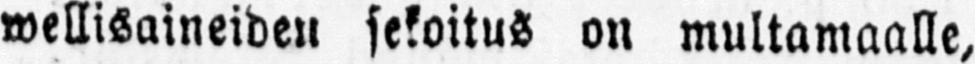wellisaineiden sekoitus on multamaalle,
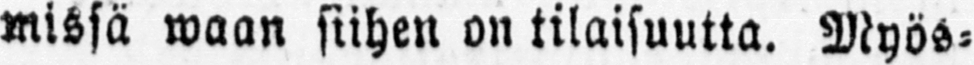missä waan siihen on tilaisuutta. Myös-
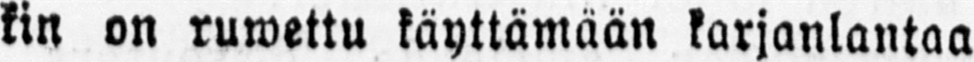kin on ruwettu käyttämään karjanlantaa
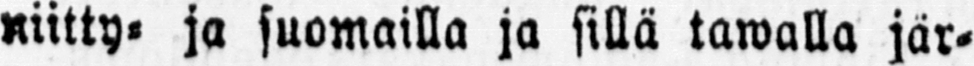niitty ja suomailla ja sillä tawalla jär-
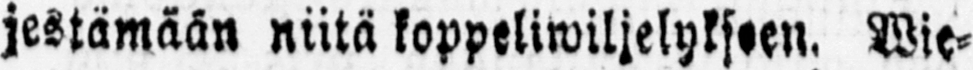jestämään niitä koppeliwiljelykseen. Wie-
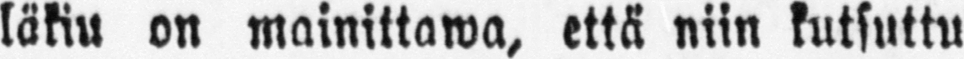läkiu on mainittawa, että niin kutsuttu
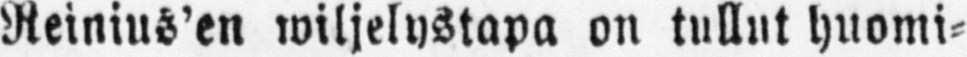Reinius'en wiljelystapa on tullut huomi-
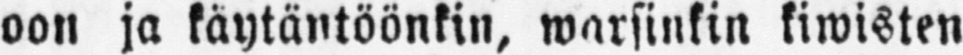oon ja käytäntöönkin, warsinkin kiwisten
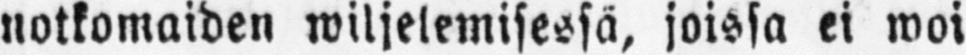notkomaiden wiljelemisessa, joissa ei woi
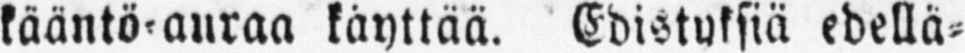kääntö-auraa käyttää. Edistyksiä edellä-
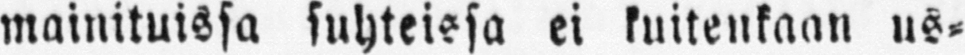mainituista suhteissa ei kuitenkaan us-
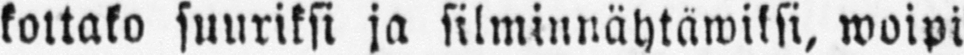kottako suuriksi ja silminnähtäwiksi, woipi
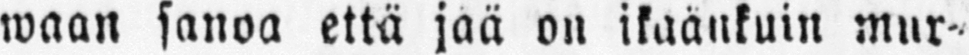waan sanoa että jää on ikäänkuin mur-
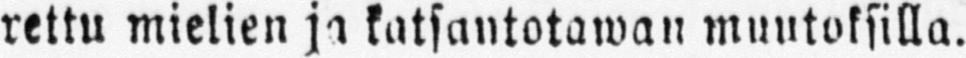rettu mielien ja katsantotawan muutoksilla.
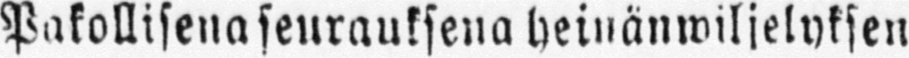Pakollisena seurauksena heinänwiljelyksen
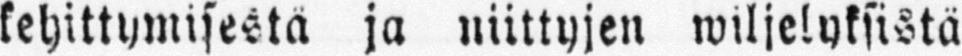kehittymisestä ja niittyjen wiljelyksistä
